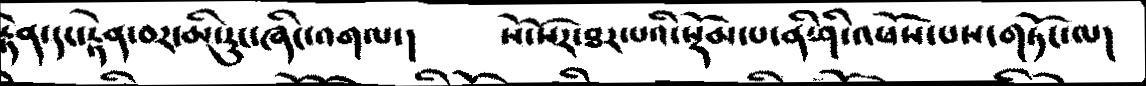རྟེན་དང་རྟེན་བར་མི་རུང་ཞིང་འགལ་།   སོ་སོར་ཐར་པའི་སྡོམ་པ་ནི་ཤི་འཕོས་པས་གཏོང་ལ།
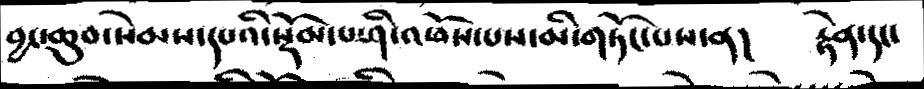བྱང་ཆུབ་སེམས་དཔའི་སྡོམ་པ་ཤི་འཕོས་པས་མི་གཏོང་པས་ན།   རྟེན་དང་
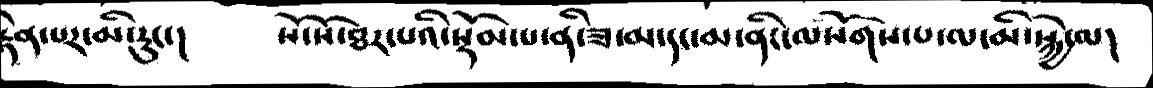རྟེན་པར་མི་རུང་།   སོ་སོ་ཐར་པའི་སྡོམ་པ་ནི་ཟ་མ་དང་མ་ནིང་ལསོགས་པ་ལ་མི་སྐྱེ་ལ།
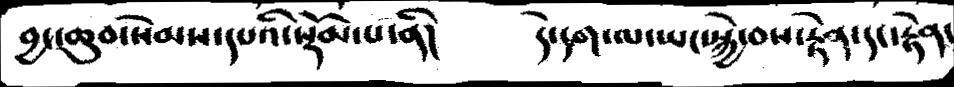བྱང་ཆུབ་སེམས་དཔའི་སྡོམ་པ་ནི།   དེ་དག་ལ་ཡང་སྐྱེ་བས་རྟེན་དང་རྟེན་
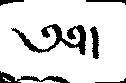༄༅།
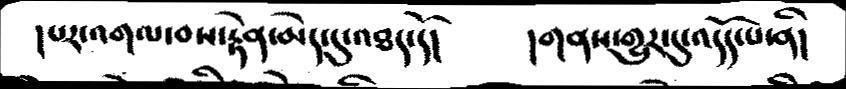།པར་འགལ་བས་རྟེན་མེད་དུ་འཐད་དོ།    །གནས་གྱུར་དུ་འདོད་པ་ནི།
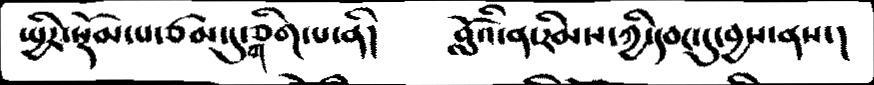སྤྱིར་སྡོམ་པ་ཙམ་དུ་གཅིག་པ་ནི།   བློའི་ན་རིམས་ཀྱི་དབང་དུ་བྱས་ནས་།
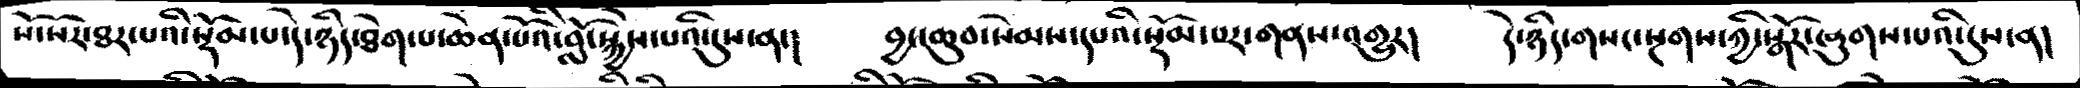སོ་སོར་ཐར་པའི་སྡོམ་པ་དེ་ཉིད་ཐེག་པ་ཆེན་པོའི་བློ་སྐྱེས་པའི་དུས་ན་།   བྱང་ཆུབ་སེམས་དཔའི་སྡོམ་པར་གནས་འགྱུར།   དེ་ཉིད་གསང་སྔགས་ཀྱི་སྒོར་ཞུགས་པའི་དུས་ན།
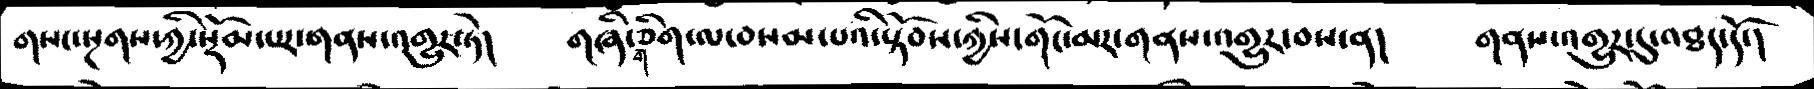གསང་སྔགས་ཀྱི་སྡོམ་པར་གནས་འགྱུར་ཏེ།   གཞི་གཅིག་ལ་བསམ་པའི་སྟོབས་ཀྱིས་གོང་མར་གནས་འགྱུར་བས་ན།   གནས་འགྱུར་དུ་འཐད་དོ་།
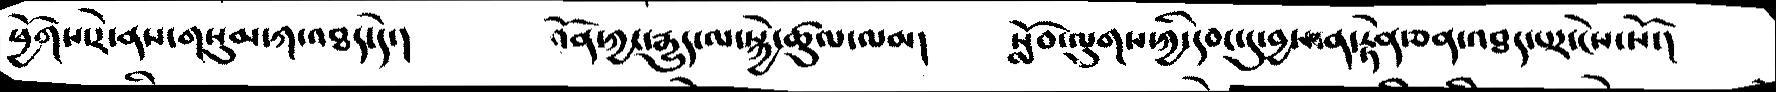ཕྱོགས་རེ་ནས་གསུམ་ཀ་འཐད་དེ་།    འོན་ཀྱང་རྒྱུད་ལ་སྐྱེ་ཚུལ་ལམ།   སློབ་ལུགས་ཀྱི་དབང་དུ་བྱས་ན་རྟེན་ཅན་འཐད་པར་ངེས་སོ་།
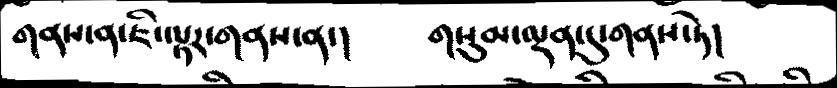གནས་ན་ཇི་ལྟར་གནས་ན་།    གསུམ་ལྡན་དུ་གནས་ཏེ།
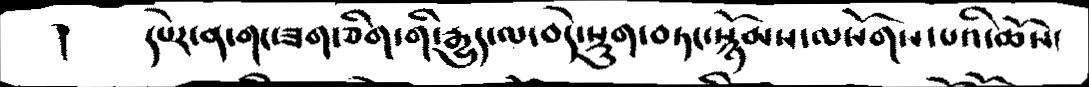།    དཔེར་ན་གང་ཟག་ཅིག་གི་རྒྱུད་ལ་བདེ་སྡུག་བཏང་སྙོམས་ལསོགས་པའི་ཆོས་
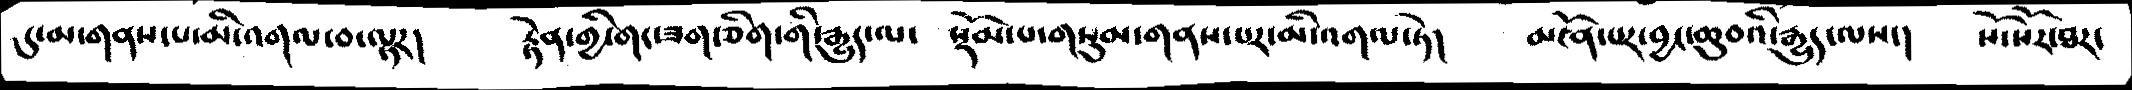དུ་མ་གནས་པ་མི་འགལ་བ་ལྟར།   རྟེན་གྱི་གང་ཟག་ཅིག་གི་རྒྱུད་ལ་  སྡོམ་པ་གསུམ་གནས་པར་མི་འགལ་ཏེ།   མངོན་པར་བྱང་ཆུབའི་རྒྱུད་ལས་།   སོ་སོར་ཐར་
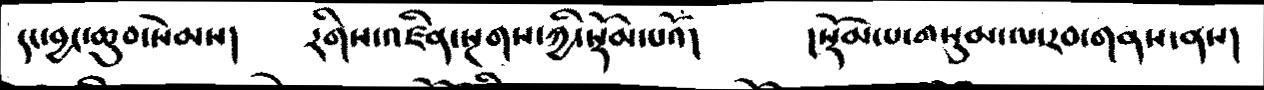དང་བྱང་ཆུབ་སེམས།   རིགས་འཛིན་སྔགས་ཀྱི་སྡོམ་པའོ།   །སྡོམ་པ་གསུམ་ལ་རབ་གནས་ནས།
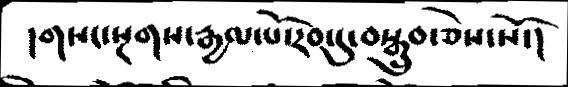།གསང་སྔགས་རྒྱལ་པོ་རབ་དུ་བསྒྲུབ་ཅེས་སོ་།
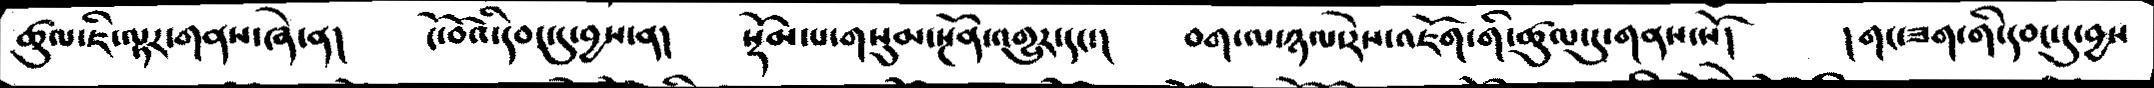ཚུལ་ཇི་ལྟར་གནས་ཞེ་ན།   ངོ་བོའི་དབང་དུ་བྱས་ན།   སྡོམ་པ་གསུམ་སྔོན་འགྱུར་དང་།   བག་ལ་ཉལ་རེས་འཇོག་གི་ཚུལ་དུ་གནས་སོ།   །གང་ཟག་གི་དབང་དུ་བྱས
